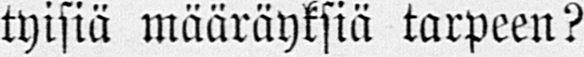tyisiä määräyksiä tarpeen?
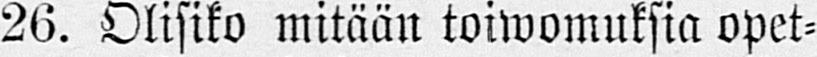26. Olisiko mitään toiwomuksia opet-
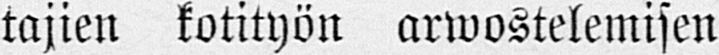tajien kotityön arwostelemisen
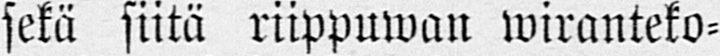sekä siitä riippuwan wiranteko-
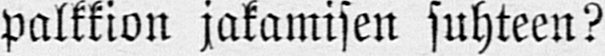palkkion jakamisen suhteen?
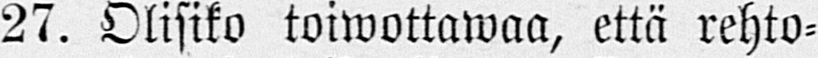27. Olisiko toiwottawaa, että rehto-
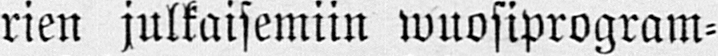rien julkaisemiin wuosiprogram-
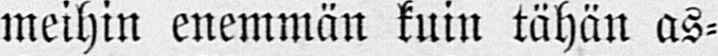meihin enemmän kuin tähän as-
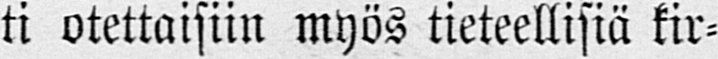ti otettaisiin myös tieteellisiä kir-
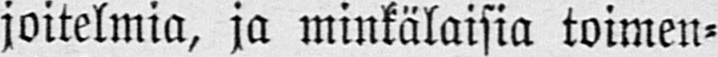joitelmia, ja minkälaisia toimen-
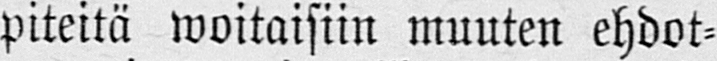piteitä woitaisiin muuten ehdot-
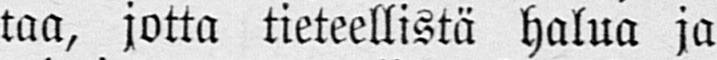taa, jotta tieteellistä halua ja
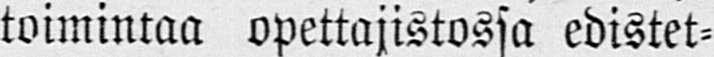toimintaa opettajistossa edistet-
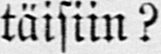täisiin?
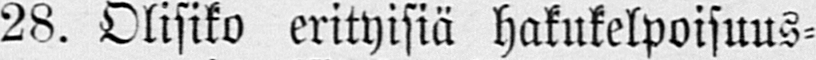28. Olisiko erityisiä hakukelpoisuus-
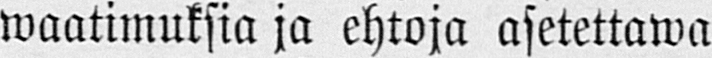waatimuksia ja ehtoja asetettawa
